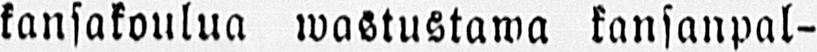kansakoulua wastustawa kansanpal-
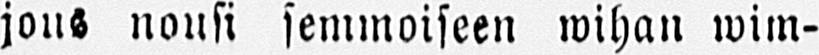jous nousi semmoiseen wihan wim-
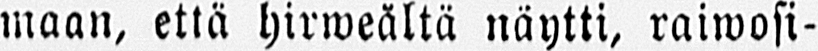maan, että hirweältä näytti, raiwosi-
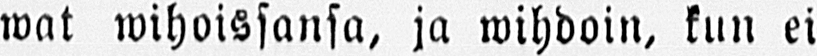wat wihoissansa, ja wihdoin, kun ei
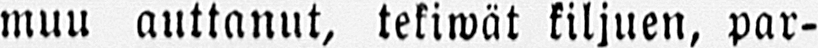muu auttanut, tekiwät kiljuen, par-
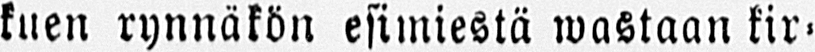kuen rynnäkön esimiestä wastaan kir-
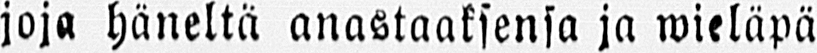joja häneltä anastaaksensa ja wieläpä
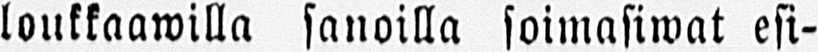loukkaawilla sanoilla soimasiwat esi-
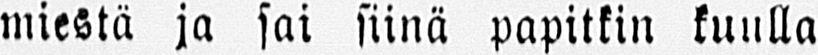miestä ja sai siinä papitkin kuulla
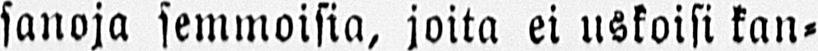sanoja semmoisia, joita ei uskoisi kan-
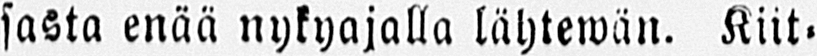sasta enää nykyajalla lähtewän. Kiit-
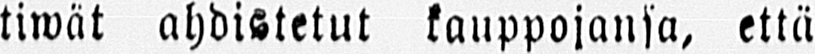tiwät ahdistetut kauppojansa, että
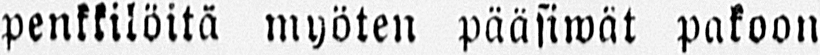penkkilöitä myöten päästiwät pakoon
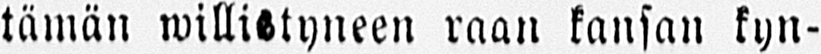tämän willistyneen raan kansan kyn-
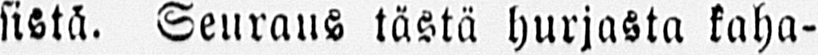sistä. Seuraus tästä hurjasta kaha-
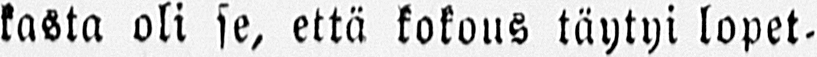kasta oli se, että kokous täytyi lopet-
